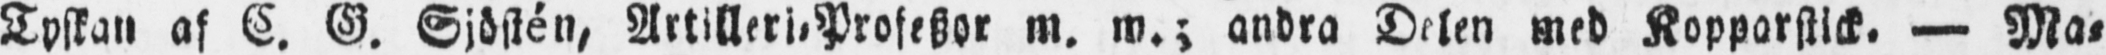Tyskan af C. G. Sjöstén, Artilleri-Profeszor m. m.; andra Delen med Kopparstick. — Ma-
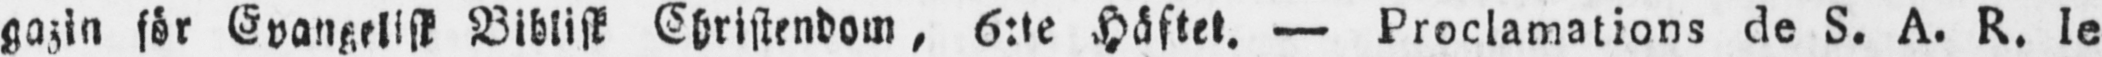gazin för Evangelisk Biblisk Christendom, 6:te Häftet. — Proclamations de S. A. R. le
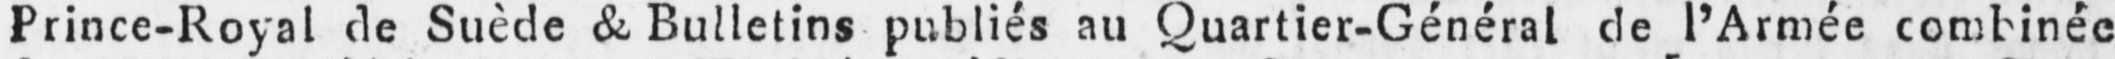Prince-Royal de Suède & Bulletins publiés au Quartier-Général de l'Armée combinée
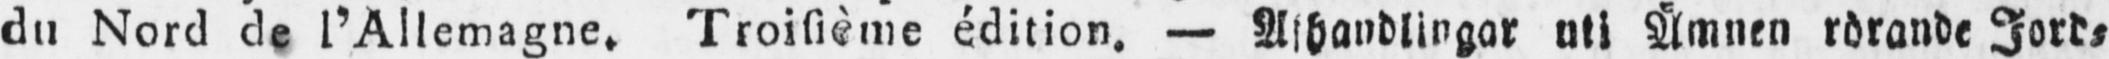du Nord de l'Allemagne. Troisième édition. — Afhandlingar uti Ämnen rörande Jord-
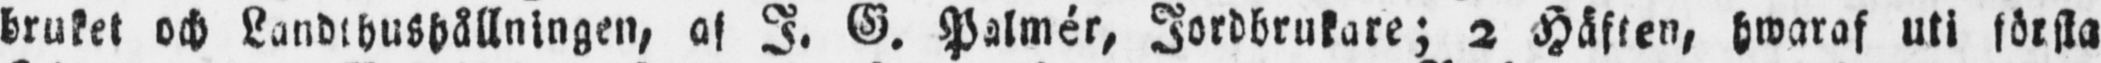bruket och Landthushållningen, af I. G. Palmér, Jordbrukare; 2 Häften, hwaraf uti första
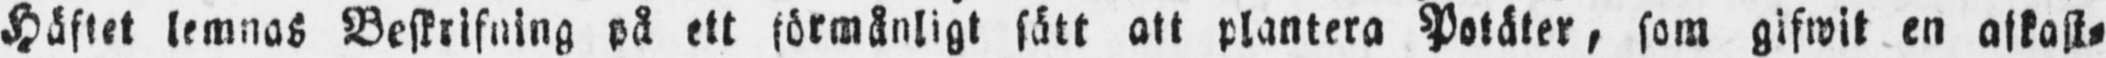Häftet lemnas Beskrifning på ett förmånligt sätt att plantera Potäter, som gifwit en afkast-
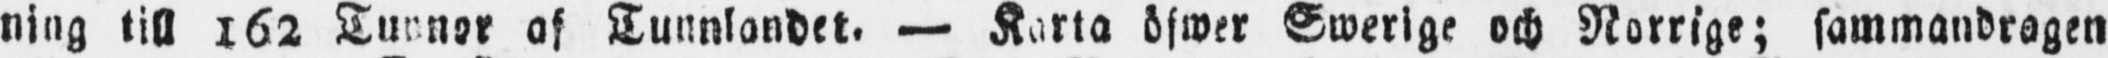ning till 162 Tunnor af Tunnlandet. — Karta öfwer Swerige och Norrige; sammandragen
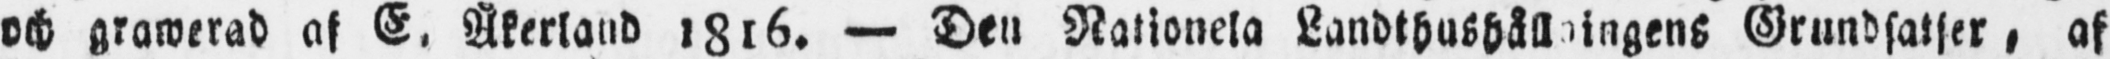och grawerad af E. Åkerland 1816. — Den Nationela Landthushållningens Grundsatser, af
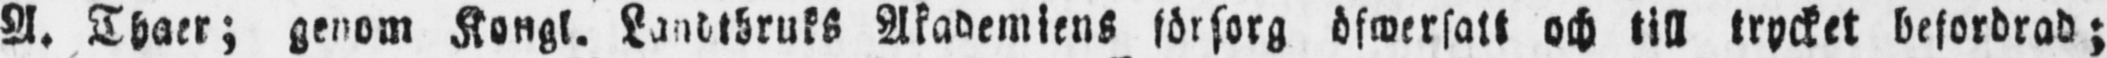A. Thaer; genom Kongl. Landtbruks Akademiens försorg öfwersatt och till trycket befordrad;
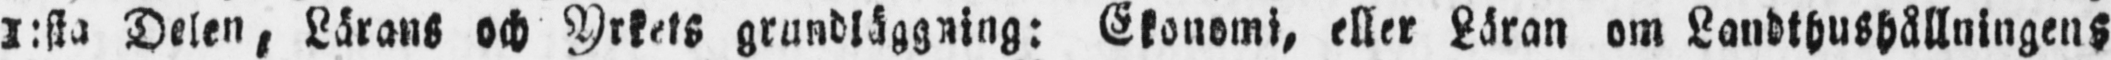1:sta Delen, Lärans och Yrkets grundläggning: Ekonomi, eller Läran om Landthushållningens
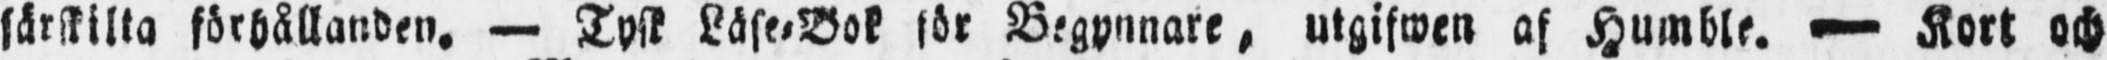särskilta förhållanden. — Tysk Läse-Bok för Begynnare, utgifwen af Humble. Kort och
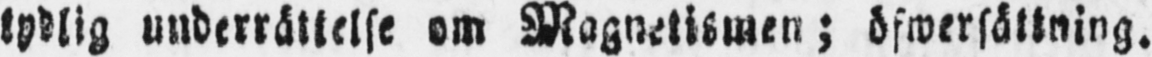tydlig underrättelse om Magnetismen; öfwersättning.
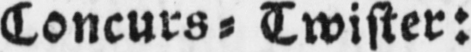Concurs- Twister:
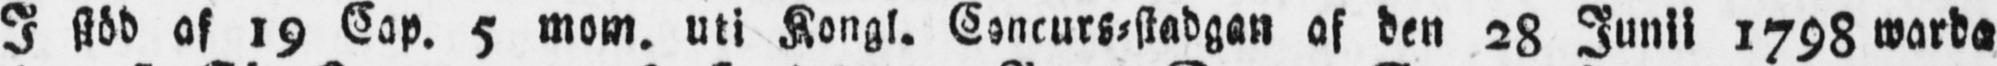I stöd af 19 Cap. 5 mom. uti Kongl. Concurs-stadgan af den 28 Junii 1798 warda
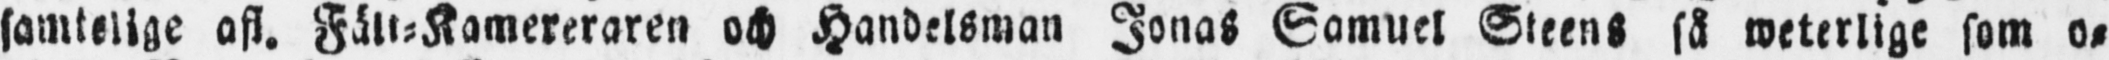samtelige afl. Fält-Kamereraren och Handelsman Jonas Samuel Steens så weterlige som o-
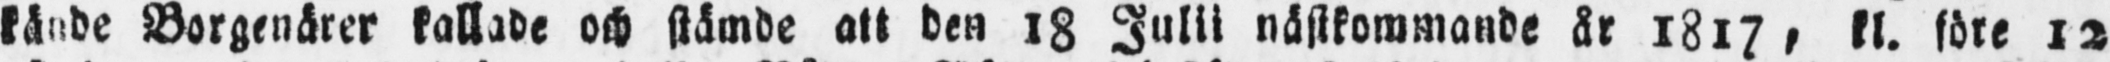kände Borgenärer kallade och stämde att den 18 Julii nästkommande år 1817 , kl. före 12
